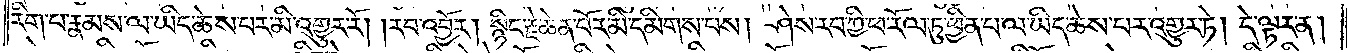རིག་པ་རྣམས་ལ་ཡིད་ཆེས་པར་མི་འགྱུར་རོ། །རབ་འབྱོར། སྙིང་རྗེ་ཆེན་པོར་མི་དམིགས་པས། ཤེས་རབ་ཀྱི་ཕ་རོལ་ཏུ་ཕྱིན་པ་ལ་ཡིད་ཆེས་པར་འགྱུར་ཏེ། དེ་ལྟར་ན།
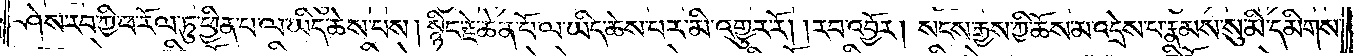ཤེས་རབ་ཀྱི་ཕ་རོལ་ཏུ་ཕྱིན་པ་ལ་ཡིད་ཆེས་པས། སྙིང་རྗེ་ཆེན་པོ་ལ་ཡིད་ཆེས་པར་མི་འགྱུར་རོ། །རབ་འབྱོར། སངས་རྒྱས་ཀྱི་ཆོས་མ་འདྲེས་པ་རྣམས་སུ་མི་དམིགས་
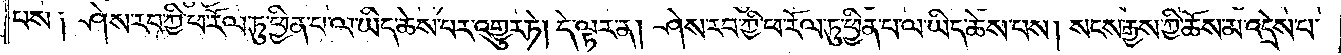པས༑ ཤེས་རབ་ཀྱི་ཕ་རོལ་ཏུ་ཕྱིན་པ་ལ་ཡིད་ཆེས་པར་འགྱུར་ཏེ། དེ་ལྟར་ན། ཤེས་རབ་ཀྱི་ཕ་རོལ་ཏུ་ཕྱིན་པ་ལ་ཡིད་ཆེས་པས། སངས་རྒྱས་ཀྱི་ཆོས་མ་འདྲེས་པ་
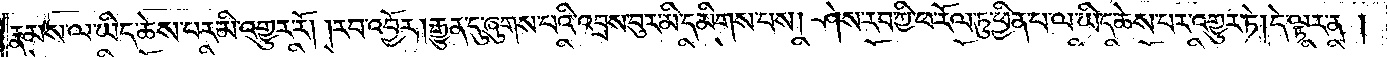རྣམས་ལ་ཡིད་ཆེས་པར་མི་འགྱུར་རོ། །རབ་འབྱོར། རྒྱུན་དུ་ཞུགས་པའི་འབྲས་བུར་མི་དམིགས་པས། ཤེས་རབ་ཀྱི་ཕ་རོལ་ཏུ་ཕྱིན་པ་ལ་ཡིད་ཆེས་པར་འགྱུར་ཏེ། དེ་ལྟར་ན།
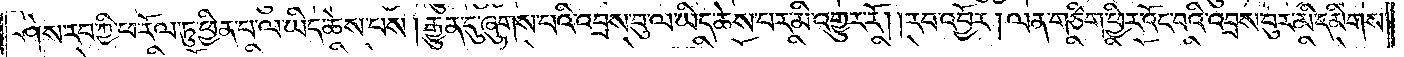ཤེས་རབ་ཀྱི་ཕ་རོལ་ཏུ་ཕྱིན་པ་ལ་ཡིད་ཆེས་པས། རྒྱུན་དུ་ཞུགས་པའི་འབྲས་བུ་ལ་ཡིད་ཆེས་པར་མི་འགྱུར་རོ། །རབ་འབྱོར། ལན་གཅིག་ཕྱིར་འོང་བའི་འབྲས་བུར་མི་དམིགས་
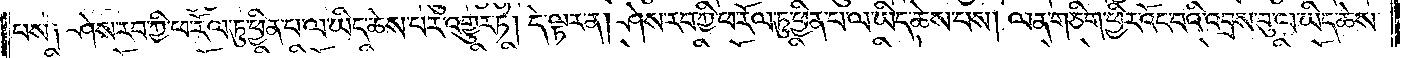པས༑ ཤེས་རབ་ཀྱི་ཕ་རོལ་ཏུ་ཕྱིན་པ་ལ་ཡིད་ཆེས་པར་འགྱུར་ཏེ། དེ་ལྟར་ན། ཤེས་རབ་ཀྱི་ཕ་རོལ་ཏུ་ཕྱིན་པ་ལ་ཡིད་ཆེས་པས། ལན་གཅིག་ཕྱིར་འོང་བའི་འབྲས་བུ་ལ་ཡིད་ཆེས་
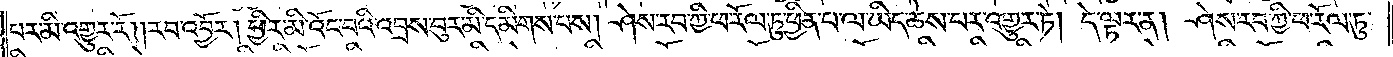པར་མི་འགྱུར་རོ། །རབ་འབྱོར། ཕྱིར་མི་འོང་བའི་འབྲས་བུར་མི་དམིགས་པས། ཤེས་རབ་ཀྱི་ཕ་རོལ་ཏུ་ཕྱིན་པ་ལ་ཡིད་ཆེས་པར་འགྱུར་ཏེ། དེ་ལྟར་ན། ཤེས་རབ་ཀྱི་ཕ་རོལ་ཏུ་
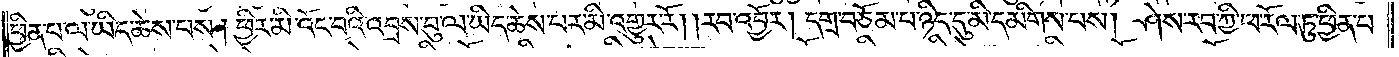ཕྱིན་པ་ལ་ཡིད་ཆེས་པས། ཕྱིར་མི་འོང་བའི་འབྲས་བུ་ལ་ཡིད་ཆེས་པར་མི་འགྱུར་རོ། །རབ་འབྱོར། དགྲ་བཅོམ་པ་ཉིད་དུ་མི་དམིགས་པས། ཤེས་རབ་ཀྱི་ཕ་རོལ་ཏུ་ཕྱིན་པ་
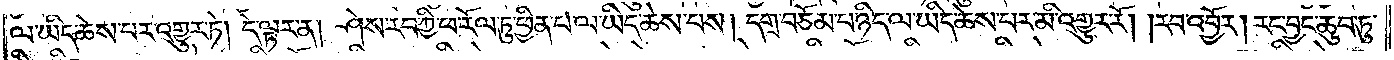ལ་ཡིད་ཆེས་པར་འགྱུར་ཏེ། དེ་ལྟར་ན། ཤེས་རབ་ཀྱི་ཕ་རོལ་ཏུ་ཕྱིན་པ་ལ་ཡིད་ཆེས་པས། དགྲ་བཅོམ་པ་ཉིད་ལ་ཡིད་ཆེས་པར་མི་འགྱུར་རོ། །རབ་འབྱོར། རང་བྱང་ཆུབ་ཏུ་
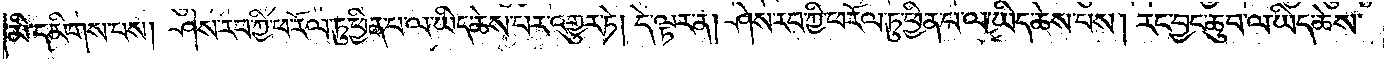མི་དམིགས་པས། ཤེས་རབ་ཀྱི་ཕ་རོལ་ཏུ་ཕྱིན་པ་ལ་ཡིད་ཆེས་པར་འགྱུར་ཏེ། དེ་ལྟར་ན། ཤེས་རབ་ཀྱི་ཕ་རོལ་ཏུ་ཕྱིན་པ་ལ་ཡིད་ཆེས་པས། རང་བྱང་ཆུབ་ལ་ཡིད་ཆེས་
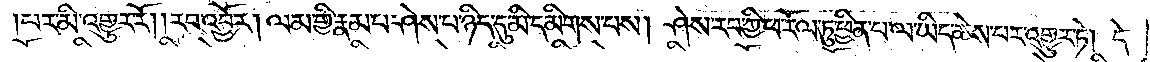པར་མི་འགྱུར་རོ། །རབ་འབྱོར། ལམ་གྱི་རྣམ་པ་ཤེས་པ་ཉིད་དུ་མི་དམིགས་པས། ཤེས་རབ་ཀྱི་ཕ་རོལ་ཏུ་ཕྱིན་པ་ལ་ཡིད་ཆེས་པར་འགྱུར་ཏེ། དེ་
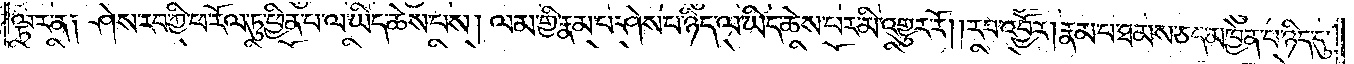ལྟར་ན༑ ཤེས་རབ་ཀྱི་ཕ་རོལ་ཏུ་ཕྱིན་པ་ལ་ཡིད་ཆེས་པས། ལམ་གྱི་རྣམ་པ་ཤེས་པ་ཉིད་ལ་ཡིད་ཆེས་པར་མི་འགྱུར་རོ། །རབ་འབྱོར། རྣམ་པ་ཐམས་ཅད་མཁྱེན་པ་ཉིད་དུ་
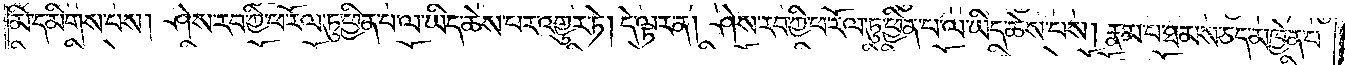མི་དམིགས་པས། ཤེས་རབ་ཀྱི་ཕ་རོལ་ཏུ་ཕྱིན་པ་ལ་ཡིད་ཆེས་པར་འགྱུར་ཏེ། དེ་ལྟར་ན། ཤེས་རབ་ཀྱི་ཕ་རོལ་ཏུ་ཕྱིན་པ་ལ་ཡིད་ཆེས་པས། རྣམ་པ་ཐམས་ཅད་མཁྱེན་པ་
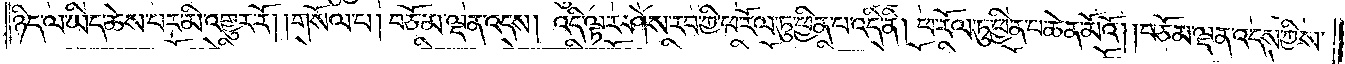ཉིད་ལ་ཡིད་ཆེས་པར་མི་འགྱུར་རོ། །གསོལ་པ། བཅོམ་ལྡན་འདས། འདི་ལྟར་ཤེས་རབ་ཀྱི་ཕ་རོལ་ཏུ་ཕྱིན་པ་འདི་ནི། ཕ་རོལ་ཏུ་ཕྱིན་པ་ཆེན་མོའོ། །བཅོམ་ལྡན་འདས་ཀྱིས་
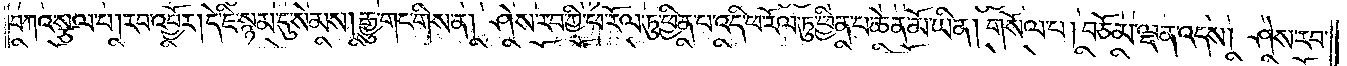བཀའ་སྩལ་པ། རབ་འབྱོར། དེ་ཇི་སྙམ་དུ་སེམས། རྒྱུ་གང་གིས་ན། ཤེས་རབ་ཀྱི་ཕ་རོལ་ཏུ་ཕྱིན་པ་འདི་ཕ་རོལ་ཏུ་ཕྱིན་པ་ཆེན་མོ་ཡིན། གསོལ་པ། བཅོམ་ལྡན་འདས། ཤེས་རབ་
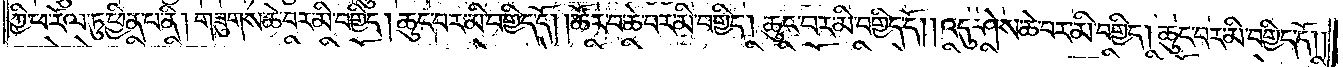ཀྱི་ཕ་རོལ་ཏུ་ཕྱིན་པ་ནི། གཟུགས་ཆེ་བར་མི་བགྱིད། ཆུང་བར་མི་བགྱིད་དོ། །ཚོར་བ་ཆེ་བར་མི་བགྱིད། ཆུང་བར་མི་བགྱིད་དོ། །འདུ་ཤེས་ཆེ་བར་མི་བགྱིད། ཆུང་བར་མི་བགྱིད་དོ། །
